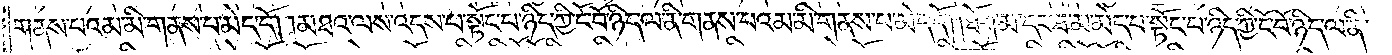གནས་པའམ་མི་གནས་པ་མེད་དོ། །མཐའ་ལས་འདས་པ་སྟོང་པ་ཉིད་ཀྱི་ངོ་བོ་ཉིད་ལ་ནི་གནས་པའམ་མི་གནས་པ་མེད་དོ། །ཐོག་མ་དང་ཐ་མ་མེད་པ་སྟོང་པ་ཉིད་ཀྱི་ངོ་བོ་ཉིད་ལ་ནི་
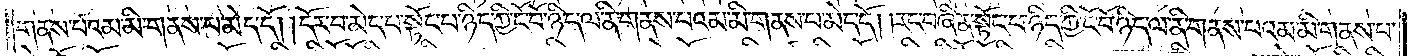གནས་པའམ་མི་གནས་པ་མེད་དོ། །དོར་བ་མེད་པ་སྟོང་པ་ཉིད་ཀྱི་ངོ་བོ་ཉིད་ལ་ན་གནས་པའམ་མི་གནས་པ་མེད་དོ། །རང་བཞིན་སྟོང་པ་ཉིད་ཀྱི་ངོ་བོ་ཉིད་ལ་ནི་གནས་པའམ་མི་གནས་པ་
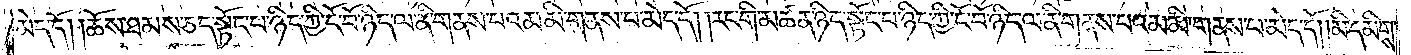མེད་དོ། །ཆོས་ཐམས་ཅད་སྟོང་པ་ཉིད་ཀྱི་ངོ་བོ་ཉིད་ལ་ནི་གནས་པའམ་མི་གནས་པ་མེད་དོ། །རང་གི་མཚན་ཉིད་སྟོང་པ་ཉིད་ཀྱི་ངོ་བོ་ཉིད་ལ་ནི་གནས་པའམ་མི་གནས་པ་མེད་དོ། །མི་དམིགས་
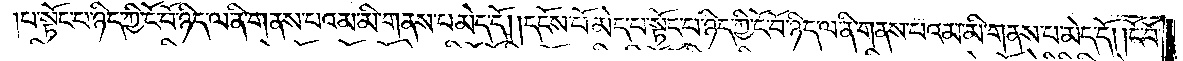པ་སྟོང་པ་ཉིད་ཀྱི་ངོ་བོ་ཉིད་ལ་ནི་གནས་པའམ་མི་གནས་པ་མེད་དོ། །དངོས་པོ་མེད་པ་སྟོང་པ་ཉིད་ཀྱི་ངོ་བོ་ཉིད་ལ་ནི་གནས་པའམ་མི་གནས་པ་མེད་དོ། །ངོ་བོ་
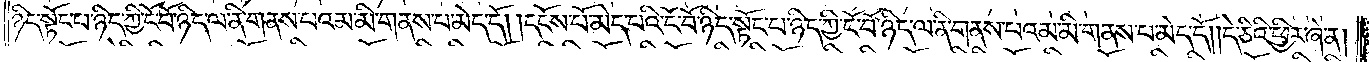ཉིད་སྟོང་པ་ཉིད་ཀྱི་ངོ་བོ་ཉིད་ལ་ནི་གནས་པའམ་མི་གནས་པ་མེད་དོ། །དངོས་པོ་མེད་པའི་ངོ་བོ་ཉིད་སྟོང་པ་ཉིད་ཀྱི་ངོ་བོ་ཉིད་ལ་ནི་གནས་པའམ་མི་གནས་པ་མེད་དོ། །དེ་ཅིའི་ཕྱིར་ཞེ་ན།
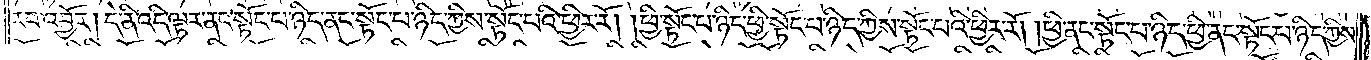རབ་འབྱོར། དེ་ནི་འདི་ལྟར་ནང་སྟོང་པ་ཉིད་ནང་སྟོང་པ་ཉིད་ཀྱིས་སྟོང་པའི་ཕྱིར་རོ། །ཕྱི་སྟོང་པ་ཉིད་ཕྱི་སྟོང་པ་ཉིད་ཀྱིས་སྟོང་པའི་ཕྱིར་རོ། །ཕྱི་ནང་སྟོང་པ་ཉིད་ཕྱི་ནང་སྟོང་པ་ཉིད་ཀྱིས་
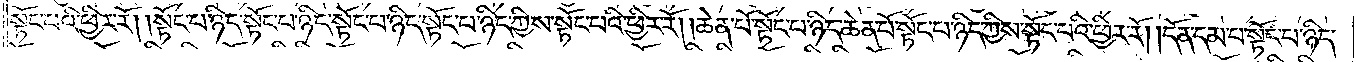སྟོང་པའི་ཕྱིར་རོ། །སྟོང་པ་ཉིད་སྟོང་པ་ཉིད་སྟོང་པ་ཉིད་སྟོང་པ་ཉིད་ཀྱིས་སྟོང་པའི་ཕྱིར་རོ། །ཆེན་པོ་སྟོང་པ་ཉིད་ཆེན་པོ་སྟོང་པ་ཉིད་ཀྱིས་སྟོང་པའི་ཕྱིར་རོ། །དོན་དམ་པ་སྟོང་པ་ཉིད་
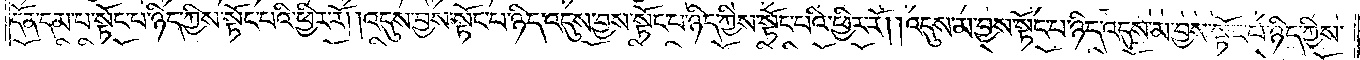དོན་དམ་པ་སྟོང་པ་ཉིད་ཀྱིས་སྟོང་པའི་ཕྱིར་རོ། །འདུས་བྱས་སྟོང་པ་ཉིད་འདུས་བྱས་སྟོང་པ་ཉིད་ཀྱིས་སྟོང་པའི་ཕྱིར་རོ། །འདུས་མ་བྱས་སྟོང་པ་ཉིད་འདུས་མ་བྱས་སྟོང་པ་ཉིད་ཀྱིས་
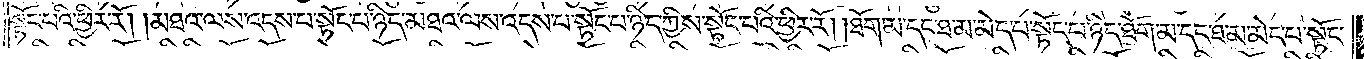སྟོང་པའི་ཕྱིར་རོ། །མཐའ་ལས་འདས་པ་སྟོང་པ་ཉིད་མཐའ་ལས་འདས་པ་སྟོང་པ་ཉིད་ཀྱིས་སྟོང་པའི་ཕྱིར་རོ། །ཐོག་མ་དང་ཐ་མ་མེད་པ་སྟོང་པ་ཉིད་ཐོག་མ་དང་ཐ་མ་མེད་པ་སྟོང་
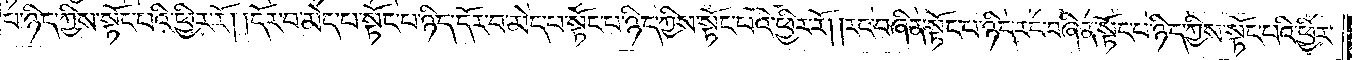པ་ཉིད་ཀྱིས་སྟོང་པའི་ཕྱིར་རོ། །དོར་བ་མེད་པ་སྟོང་པ་ཉིད་དོར་བ་མེད་པ་སྟོང་པ་ཉིད་ཀྱིས་སྟོང་པའི་ཕྱིར་རོ། །རང་བཞིན་སྟོང་པ་ཉིད་རང་བཞིན་སྟོང་པ་ཉིད་ཀྱིས་སྟོང་པའི་ཕྱིར་
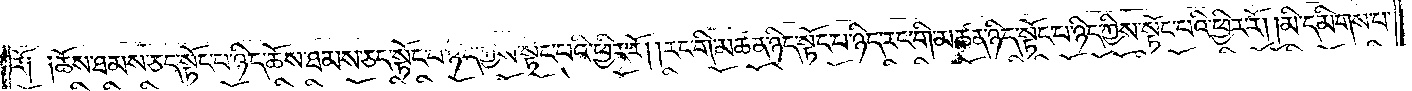རོ། །ཆོས་ཐམས་ཅད་སྟོང་པ་ཉིད་ཆོས་ཐམས་ཅད་སྟོང་པ་ཉིད་ཀྱིས་སྟོང་པའི་ཕྱིར་རོ། །རང་གི་མཚན་ཉིད་སྟོང་པ་ཉིད་རང་གི་མཚན་ཉིད་སྟོང་པ་ཉིད་ཀྱིས་སྟོང་པའི་ཕྱིར་རོ། །མི་དམིགས་པ་
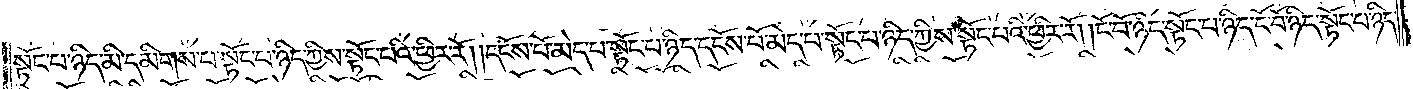སྟོང་པ་ཉིད་མི་དམིགས་པ་སྟོང་པ་ཉིད་ཀྱིས་སྟོང་པའི་ཕྱིར་རོ། །དངོས་པོ་མེད་པ་སྟོང་པ་ཉིད་དངོས་པོ་མེད་པ་སྟོང་པ་ཉིད་ཀྱིས་སྟོང་པའི་ཕྱིར་རོ། །ངོ་བོ་ཉིད་སྟོང་པ་ཉིད་ངོ་བོ་ཉིད་སྟོང་པ་ཉིད་
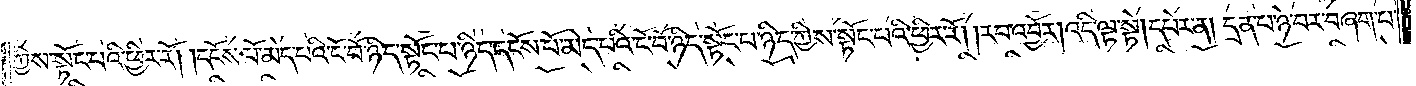ཀྱིས་སྟོང་པའི་ཕྱིར་རོ། །དངོས་པོ་མེད་པའི་ངོ་བོ་ཉིད་སྟོང་པ་ཉིད་དངོས་པོ་མེད་པའི་ངོ་བོ་ཉིད་སྟོང་པ་ཉིད་ཀྱིས་སྟོང་པའི་ཕྱིར་རོ། །རབ་འབྱོར། འདི་ལྟ་སྟེ། དཔེར་ན། དྲན་པ་ཉེ་བར་བཞག་པ་
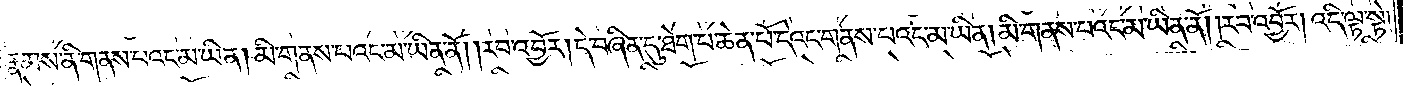རྣམས་ནི་གནས་པའང་མ་ཡིན། མི་གནས་པའང་མ་ཡིན་ནོ། །རབ་འབྱོར། དེ་བཞིན་དུ་ཐེག་པ་ཆེན་པོ་དེའང་གནས་པའང་མ་ཡིན་མི་གནས་པའང་མ་ཡིན་ནོ། །རབ་འབྱོར། འདི་ལྟ་སྟེ།
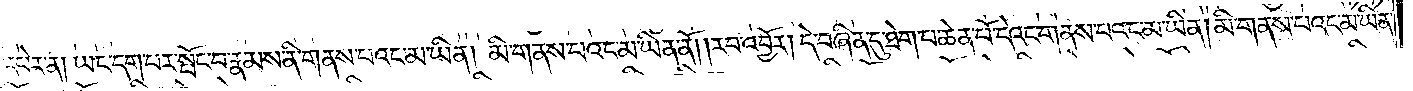དཔེར་ན། ཡང་དག་པར་སྤོང་བ་རྣམས་ནི་གནས་པའང་མ་ཡིན། མི་གནས་པའང་མ་ཡིན་ནོ། །རབ་འབྱོར། དེ་བཞིན་དུ་ཐེག་པ་ཆེན་པོ་དེའང་གནས་པའང་མ་ཡིན། མི་གནས་པའང་མ་ཡིན་
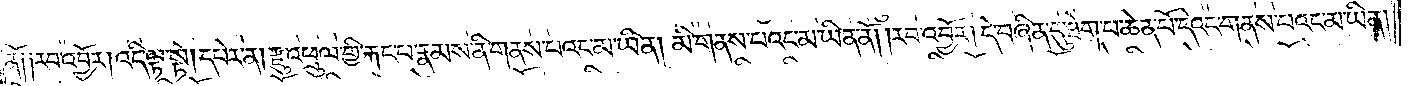ནོ། །རབ་འབྱོར། འདི་ལྟ་སྟེ། དཔེར་ན། རྫུ་འཕྲུལ་གྱི་རྐང་པ་རྣམས་ནི་གནས་པའང་མ་ཡིན། མི་གནས་པའང་མ་ཡིན་ནོ། །རབ་འབྱོར། དེ་བཞིན་དུ་ཐེག་པ་ཆེན་པོ་དེའང་གནས་པའང་མ་ཡིན།
